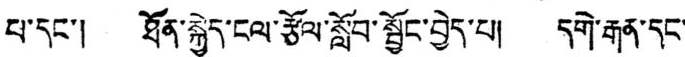པ་དང་། ཐོན་སྐྱེད་ངལ་རྩོལ་སློབ་སྦྱོང་བྱེད་པ། དགེ་རྒན་དང་
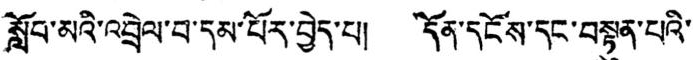སློབ་མའི་འབྲེལ་བ་དམ་པོར་བྱེད་པ། དོན་དངོས་དང་བསྟུན་པའི་
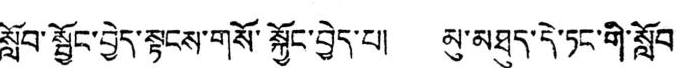སློབ་སྦྱོང་བྱེད་སྟངས་གསོ་སྐྱོང་བྱེད་པ། མུ་མཐུད་དེ་ཏང་གི་སློབ་
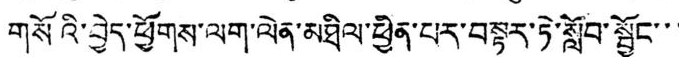གསོའི་བྱེད་ཕྱོགས་ལག་ལེན་མཐིལ་ཕྱིན་པར་བསྟར་ཏེ་སློབ་སྦྱོང་་་
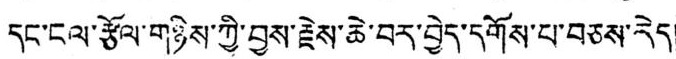དང་ངལ་རྩོལ་གཉིས་ཀྱི་བྱས་རྗེས་ཆེ་བར་བྱེད་དགོས་པ་བཅས་རེད།
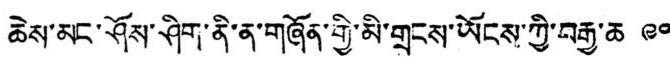ཆེས་མང་ཤོས་ཤིག་ནི་ན་གཞོན་གྱི་མི་གྲངས་ཡོངས་ཀྱི་བརྒྱ་ཆ ༩༠
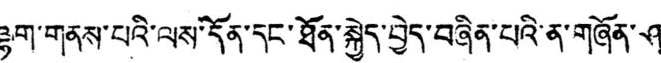ལྷག་གནས་པའི་ལས་དོན་དང་ཐོན་སྐྱེད་བྱེད་བཞིན་པའི་ན་གཞོན་ཤ་
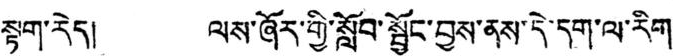སྟག་རེད། ལས་ཞོར་གྱི་སློབ་སྦྱོང་བྱས་ནས་དེ་དག་ལ་རིག་
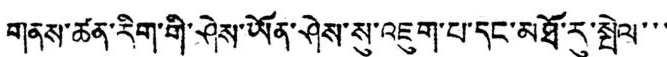གནས་ཚན་རིག་གི་ཤེས་ཡོན་ཤེས་སུ་འཇུག་པ་དང་མཐོ་རུ་སྤེལ་་་་
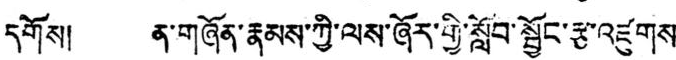དགོས། ན་གཞོན་རྣམས་ཀྱི་ལས་ཞོར་གྱི་སློབ་སྦྱོང་རྩ་འཛུགས་
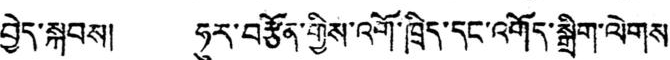བྱེད་སྐབས། ཧུར་བརྩོན་གྱིས་འགོ་ཁྲིད་དང་འགོད་སྒྲིག་ལེགས་
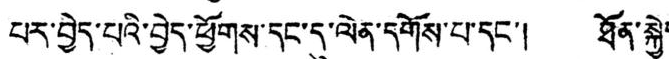པར་བྱེད་པའི་བྱེད་ཕྱོགས་དང་དུ་ལེན་དགོས་པ་དང་། ཐོན་སྐྱེད་
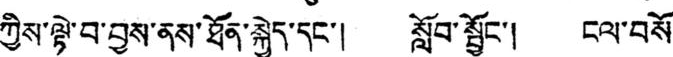ཀྱིས་ལྟེ་བ་བྱས་ནས་ཐོན་སྐྱེད་དང་། སློབ་སྦྱོང་། ངལ་བསོ་
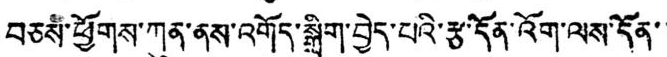བཅས་ཕྱོགས་ཀུན་ནས་འགོད་སྒྲིག་བྱེད་པའི་རྩ་དོན་འོག་ལས་དོན་་་
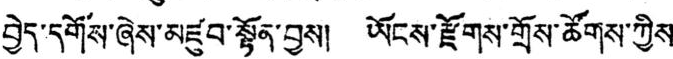བྱེད་དགོས་ཞེས་མཛུབ་སྟོན་བྱས། ཡོངས་རྫོགས་གྲོས་ཚོགས་ཀྱིས་
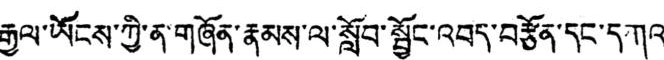རྒྱལ་ཡོངས་ཀྱི་ན་གཞོན་རྣམས་ལ་སློབ་སྦྱོངས་འབད་བརྩོན་དང་དཀའ་
